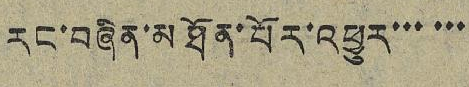རང་བཞིན་མཐོན་པོར་འཕྱུར་་་་་་
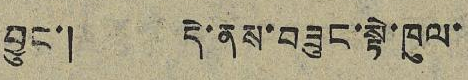བྱུང་། དེ་ནས་བཟུང་སྟེ་ཁུལ་
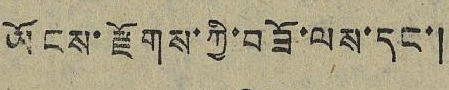ཡོངས་རྫོགས་ཀྱི་བཟོ་ལས་དང་།
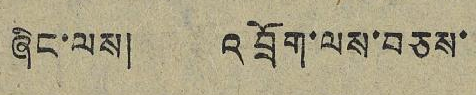ཞིང་ལས། འབྲོག་ལས་བཅས་
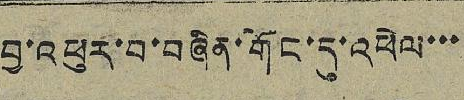བྱ་འཕུར་བ་བཞིན་གོང་དུ་འཕེལ་་་
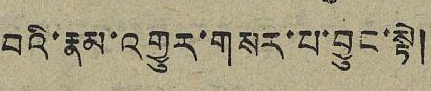བའི་རྣམ་འགྱུར་གསར་པ་བྱུང་སྟེ།
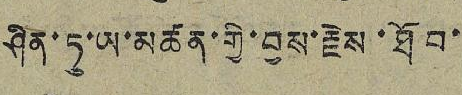ཤིན་ཏུ་ཡ་མཚན་གྱི་བྱས་རྗེས་ཐོབ་
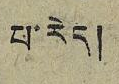པ་རེད།
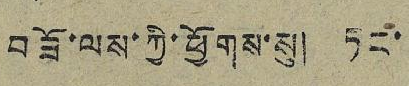བཟོ་ལས་ཀྱི་ཕྱོགས་སུ། ཏང་
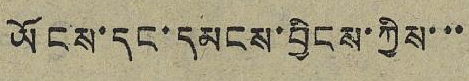ཡོངས་དང་དམངས་བྱིངས་ཀྱིས་་་
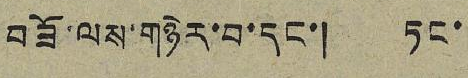བཟོ་ལས་གཉེར་བ་དང་། ཏང་
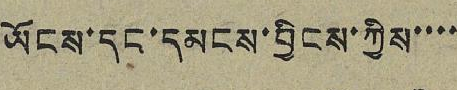ཡོངས་དང་དམངས་བྱིངས་ཀྱིས་་་་
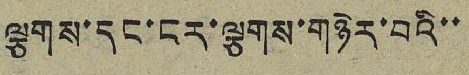ལྕགས་དང་ངར་ལྕགས་གཉེར་བའི་་
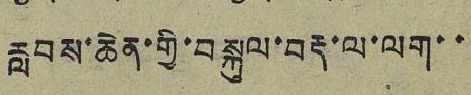རླབས་ཆེན་གྱི་བསྐུལ་བརྡ་ལ་ལག་་
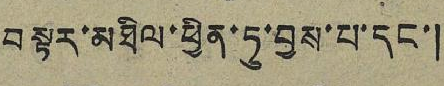བསྟར་མཐིལ་ཕྱིན་ཏུ་བྱས་པ་དང་།
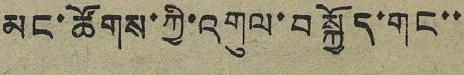མང་ཐོགས་ཀྱི་འགུལ་བསྐྱོད་གང་་
